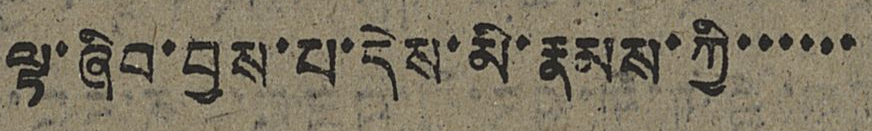ལྟ་ཞིབ་བྱས་པ་དེས་མི་རྣམས་ཀྱི་་་་་་
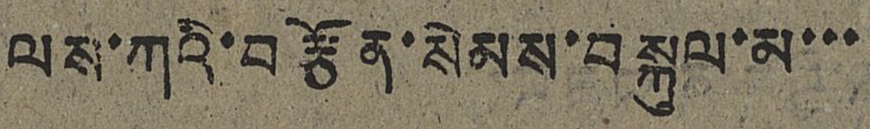ལས་ཀའི་བརྩོན་སེམས་བསྐུལ་མ་་་
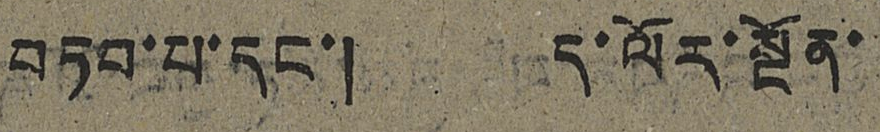བཏབ་པ་དང་། ད་ལོར་སྔོན་
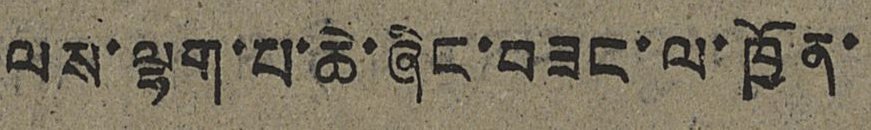ལས་ལྷག་པ་ཆེ་ཞིང་བཟང་ལ་ཁྱོན་
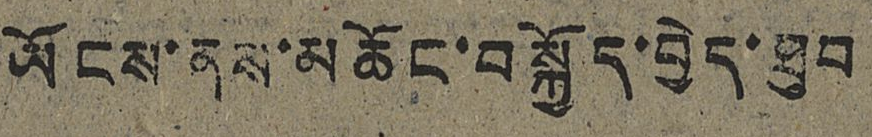ཡོངས་ནས་མཆོང་བསྐྱོད་བྱེད་ཐུབ
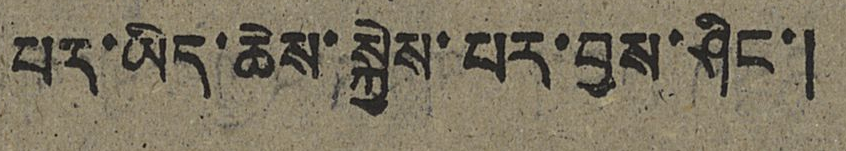པར་ཡིད་ཆེས་སྐྱེས་པར་བྱས་ཤིང་།
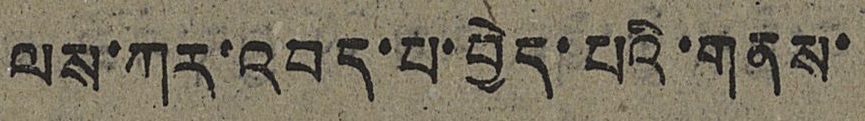ལས་ཀར་འབད་པ་བྱེད་པའི་གནས་
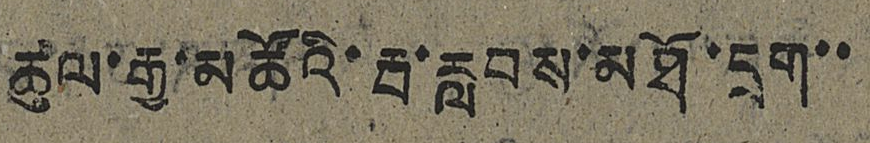ཚུལ་རྒྱ་མཚོའི་རྦ་རླབས་མཐོ་དྲག་་
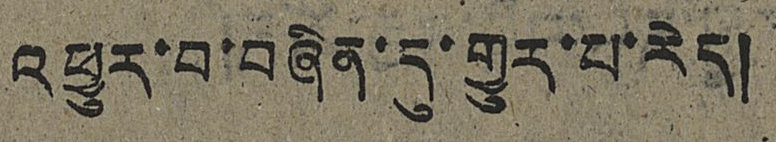འཕྱུར་བ་བཞིན་དུ་གྱུར་པ་རེད།
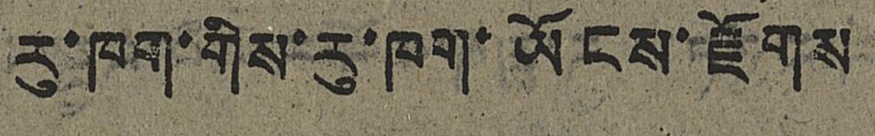རུ་ཁག་གིས་རུ་ཁག་ཡོངས་རྫོགས
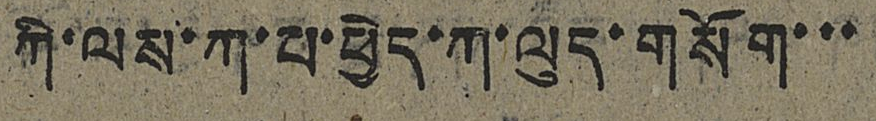ཀི་ལས་ཀ་པ་ཕྱེད་ཀ་ལུད་གསོག་་་
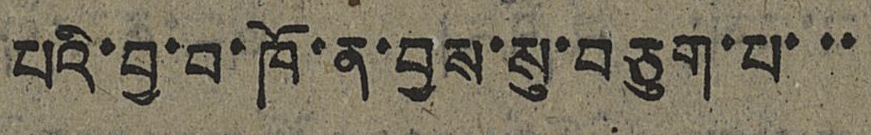པའི་བྱ་བ་ཁོ་ན་བྱས་སུ་བཅུག་པ་་་
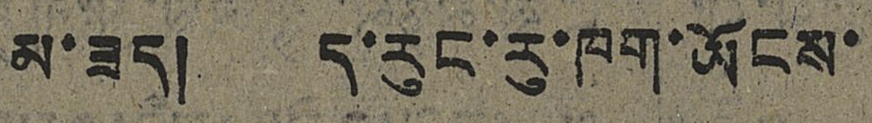མ་ཟད། ད་རུང་རུ་ཁག་ཡོངས་
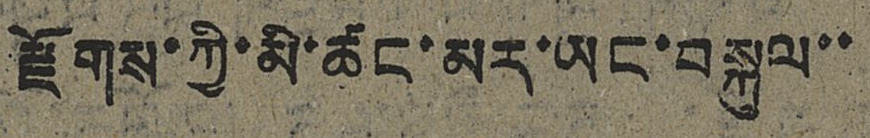རྫོགས་ཀྱི་མི་ཚང་མར་ཡང་བསྐུལ་་
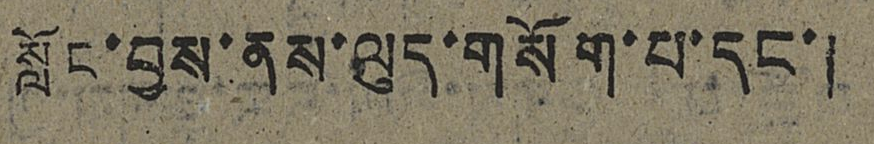སློང་བྱས་ནས་ལུད་གསོག་པ་དང་།
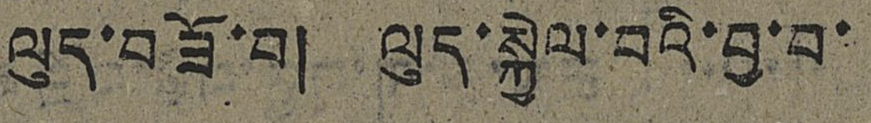ལུད་བཟོ་བ། ལུད་སྐྱེལ་བའི་བྱ་བ་
